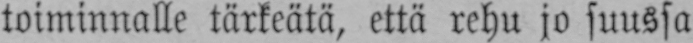toiminnalle tärkeätä, että rehu jo suussa
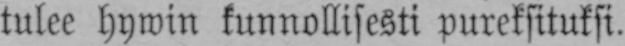tulee hywin kunnollisesti pureksituksi.
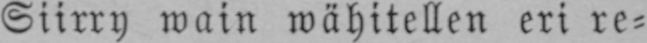Siirry wain wähitellen eri re-
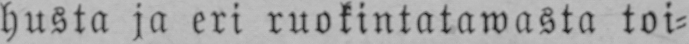husta ja eri ruokintatawasta toi-
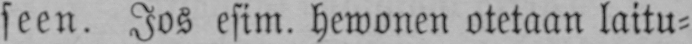seen. Jos esim. hewonen otetaan laitu-
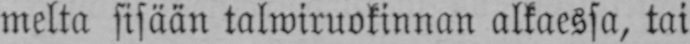melta sisään talwiruokinnan alkaessa, tai
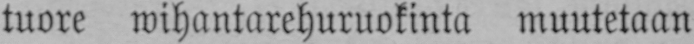tuore wihantarehuruokinta muutetaan
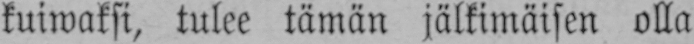kuiwaksi, tulee tämän jälkimäisen olla
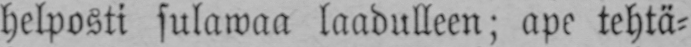helposti sulawaa laadulleen; ape tehtä-
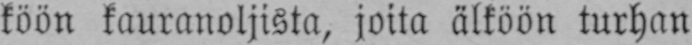köön kauranoljista, joita älköön turhan
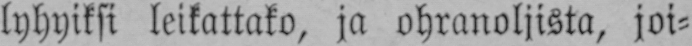lyhyiksi leikattako, ja ohranoljista, joi-
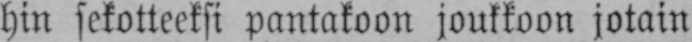hin sekotteeksi pantakoon joukkoon jotain
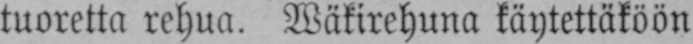tuoretta rehua. Wäkirehuna käytettäköön
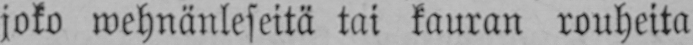joko wehnänleseitä tai kauran rouheita
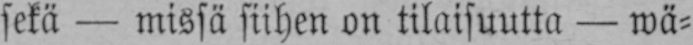sekä — missä siihen on tilaisuutta — wä-
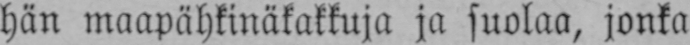hän maapähkinäkakkuja ja suolaa, jonka
